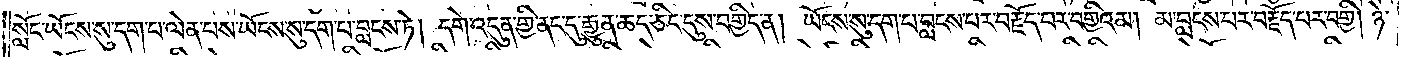སློང་ཡོངས་སུ་དག་པ་ལེན་པས་ཡོངས་སུ་དག་པ་བླངས་ཏེ། དགེ་འདུན་གྱི་ནང་དུ་རྒྱུན་ཆད་ཅིང་དུས་བགྱིད་ན། ཡོངས་སུ་དག་པ་བླངས་པར་བརྗོད་པར་བགྱིའམ། མ་བླངས་པར་བརྗོད་པར་བགྱི། ཉེ་
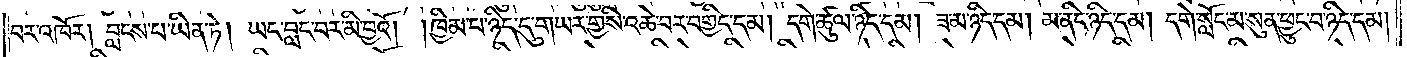བར་འཁོར། བླངས་པ་ཡིན་ཏེ། ཡང་བླང་བར་མི་བྱའོ། །ཁྱིམ་པ་ཉིད་དུ་གཡར་གྱིས་འཆེ་བར་བགྱིད་དམ། དགེ་ཚུལ་ཉིད་དམ། ཟ་མ་ཉིད་དམ། མ་ནིང་ཉིད་དམ། དགེ་སློང་མ་སུན་ཕྱུང་བ་ཉིད་དམ།
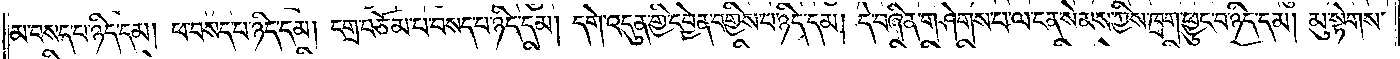མ་བསད་པ་ཉིད་དམ། ཕ་བསད་པ་ཉིད་དམ། དགྲ་བཅོམ་པ་བསད་པ་ཉིད་དམ། དགེ་འདུན་གྱི་དབྱེན་བགྱིས་པ་ཉིད་དམ། དེ་བཞིན་གཤེགས་པ་ལ་ངན་སེམས་ཀྱིས་ཁྲག་ཕྱུང་བ་ཉིད་དམ། མུ་སྟེགས་
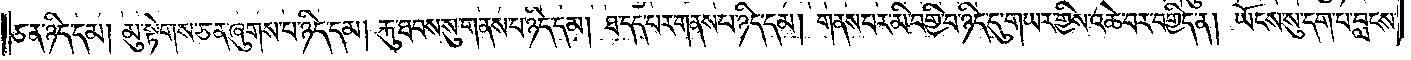ཅན་ཉིད་དམ། མུ་སྟེགས་ཅན་ཞུགས་པ་ཉིད་དམ། རྐུ་ཐབས་སུ་གནས་པ་ཉིད་དམ། ཐ་དད་པར་གནས་པ་ཉིད་དམ། གནས་པར་མི་བགྱི་བ་ཉིད་དུ་གཡར་གྱིས་འཆེ་བར་བགྱིད་ན། ཡོངས་སུ་དག་པ་བླངས་
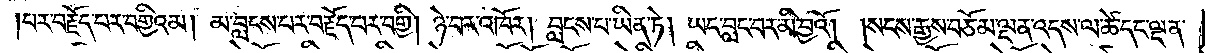པར་བརྗོད་པར་བགྱིའམ། མ་བླངས་པར་བརྗོད་པར་བགྱི། ཉེ་བར་འཁོར། བླངས་པ་ཡིན་ཏེ། ཡང་བླང་བར་མི་བྱའོ། །སངས་རྒྱས་བཅོམ་ལྡན་འདས་ལ་ཚེ་དང་ལྡན་
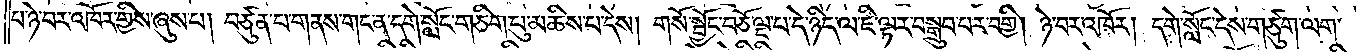པ་ཉེ་བར་འཁོར་གྱིས་ཞུས་པ། བཙུན་པ་གནས་གང་ན་དགེ་སློང་གཅིག་པུ་མཆིས་པ་དེས། གསོ་སྦྱོང་བཅོ་ལྔ་པ་དེ་ཉིད་ལ་ཇི་ལྟར་བསྒྲུབ་པར་བགྱི། ཉེ་བར་འཁོར། དགེ་སློང་དེས་གཙུག་ལག་
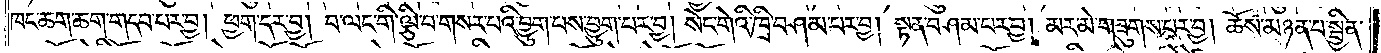ཁང་ཆག་ཆག་གདབ་པར་བྱ། ཕྱག་དར་བྱ། བ་ལང་གི་ལྕི་བ་གསར་པའི་བྱུག་པས་བྱུག་པར་བྱ། སེང་གེའི་ཁྲི་བཤམ་པར་བྱ། སྟན་བཤམ་པར་བྱ། མར་མེ་གཟུགས་པར་བྱ། ཆོས་མཉན་པ་སྦྱིན་
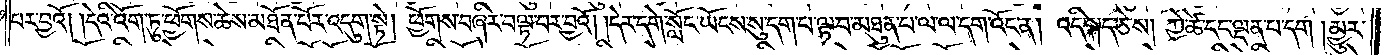པར་བྱའོ། །དེའི་འོག་ཏུ་ཕྱོགས་ཆེས་མཐོན་པོར་འདུག་སྟེ། ཕྱོགས་བཞིར་བལྟ་བར་བྱའོ། །དེར་དགེ་སློང་ཡོངས་སུ་དག་པ་ལྟ་བ་མཐུན་པ་ལ་ལ་དག་འོང་ན། འདི་སྐད་ཅེས། ཀྱེ་ཚེ་དང་ལྡན་པ་དག །མྱུར་
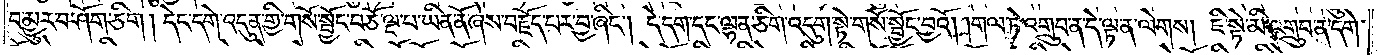བ་མྱུར་བ་ཤོག་ཅིག། དེང་དགེ་འདུན་གྱི་གསོ་སྦྱོང་བཅོ་ལྔ་པ་ཡིན་ནོ་ཞེས་བརྗོད་པར་བྱ་ཞིང༌། དེ་དག་དང་ལྷན་ཅིག་འདུག་སྟེ་གསོ་སྦྱོང་བྱའོ། །གལ་ཏེ་འགྲུབ་ན་དེ་ལྟ་ན་ལེགས། ཇི་སྟེ་མི་འགྲུབ་ན་དགེ་
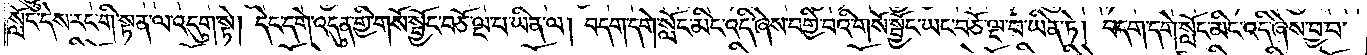སློང་དེས་རང་གི་སྟན་ལ་འདུག་སྟེ། དེང་དགེ་འདུན་གྱི་གསོ་སྦྱོང་བཅོ་ལྔ་པ་ཡིན་ལ། བདག་དགེ་སློང་མིང་འདི་ཞེས་བགྱི་བའི་གསོ་སྦྱོང་ཡང་བཅོ་ལྔ་པ་ཡིན་ཏེ། བདག་དགེ་སློང་མིང་འདི་ཞེས་བྱ་བ་
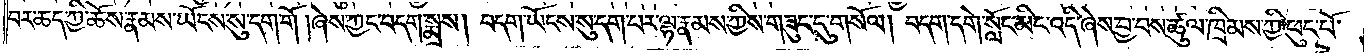བར་ཆད་ཀྱི་ཆོས་རྣམས་ཡོངས་སུ་དག་གོ །ཞེས་ཀྱང་བདག་སྨྲས། བདག་ཡོངས་སུ་དག་པར་ལྟ་རྣམས་ཀྱིས་གཟུང་དུ་གསོལ། བདག་དགེ་སློང་མིང་འདི་ཞེས་བྱ་བས་ཚུལ་ཁྲིམས་ཀྱི་ཕུང་པོ་
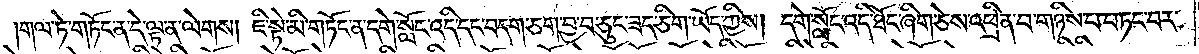གལ་ཏེ་གཏོང་ན་དེ་ལྟ་ན་ལེགས། ཇི་སྟེ་མི་གཏོང་ན་དགེ་སློང་འདི་དང་བདག་ཅག་བྱ་བ་ཅུང་ཟད་ཅིག་ཡོད་ཀྱིས། དགེ་སློང་འདི་ཐོང་ཞིག་ཅེས་འཕྲིན་བ་གཉིས་པ་བཏང་བར་
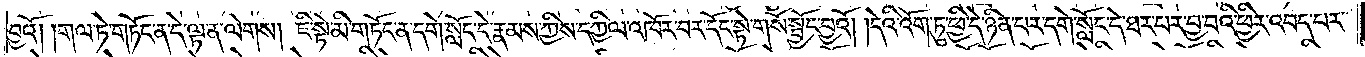བྱའོ། །གལ་ཏེ་གཏོང་ན་དེ་ལྟ་ན་ལེགས། ཇི་སྟེ་མི་གཏོང་ན་དགེ་སློང་དེ་རྣམས་ཀྱིས་དཀྱིལ་འཁོར་བར་དོང་སྟེ་གསོ་སྦྱོང་བྱའོ། །དེའི་འོག་ཏུ་ཕྱི་དེ་ཉིན་པར་དགེ་སློང་དེ་ཐར་པར་བྱ་བའི་ཕྱིར་འབད་པར་
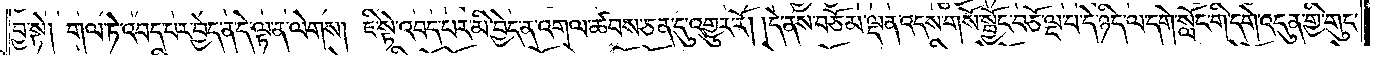བྱ་སྟེ། གལ་ཏེ་འབད་པར་བྱེད་ན་དེ་ལྟ་ན་ལེགས། ཇི་སྟེ་འབད་པར་མི་བྱེད་ན་འགལ་ཚབས་ཅན་དུ་འགྱུར་རོ། །དེ་ནས་བཅོམ་ལྡན་འདས་གསོ་སྦྱོང་བཅོ་ལྔ་པ་དེ་ཉིད་ལ་དགེ་སློང་གི་དགེ་འདུན་གྱི་གུང་
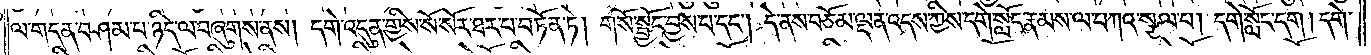ལ་གདན་བཤམ་པ་ཉིད་ལ་བཞུགས་ནས། དགེ་འདུན་གྱིས་སོ་སོར་ཐར་པ་བཏོན་ཏེ། གསོ་སྦྱོང་བྱས་པ་དང༌། དེ་ནས་བཅོམ་ལྡན་འདས་ཀྱིས་དགེ་སློང་རྣམས་ལ་བཀའ་སྩལ་པ། དགེ་སློང་དག། དགེ་
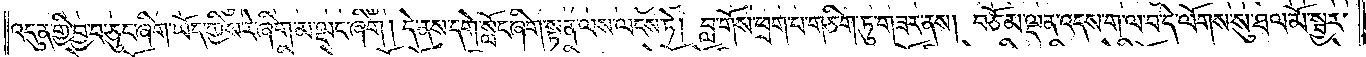འདུན་གྱི་བྱ་བ་ཅུང་ཞིག་ཡོད་ཀྱིས་རེ་ཞིག་མ་ལྡང་ཞིག། དེ་ནས་དགེ་སློང་ཞིག་སྟན་ལས་ལངས་ཏེ། བླ་གོས་ཕྲག་པ་གཅིག་ཏུ་གཟར་ནས། བཅོམ་ལྡན་འདས་ག་ལ་བ་དེ་ལོགས་སུ་ཐལ་མོ་སྦྱར་
